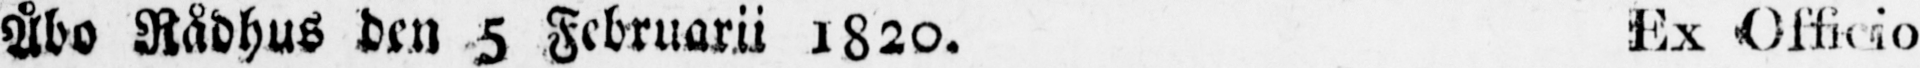Åbo Rådhus den 5 Februarii 1820. Ex Officio
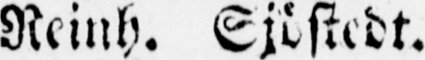Reinh. Sjöstedt.
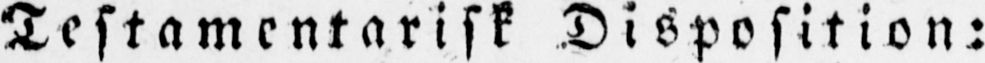Testamentarisk Disposition:
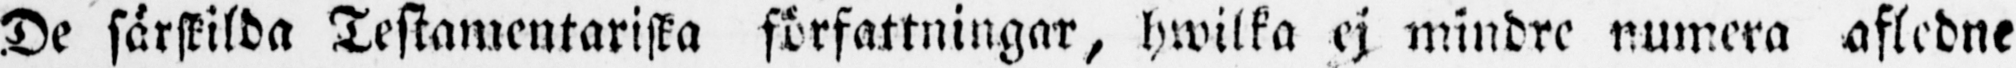De särskilda Testamentariska författningar, hwilka ej mindre numera afledne
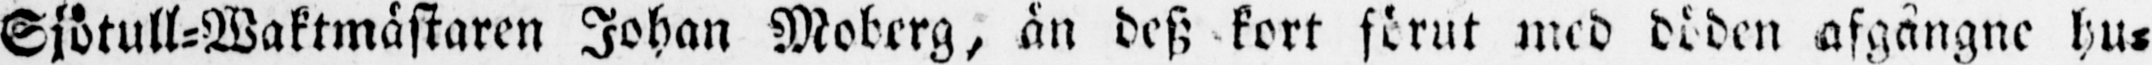Sjötull-Waktmästaren Johan Moberg, än desz kort förut med döden afgångne hu-
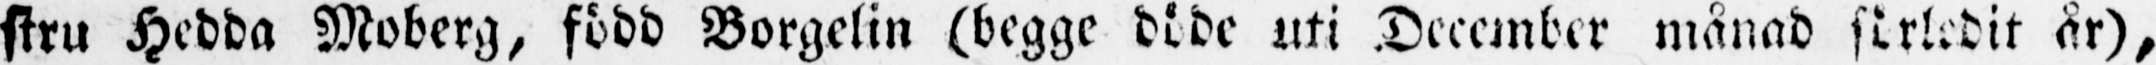stru Hedda Moberg, född Borgelin (begge döde uti December månad förledit år),
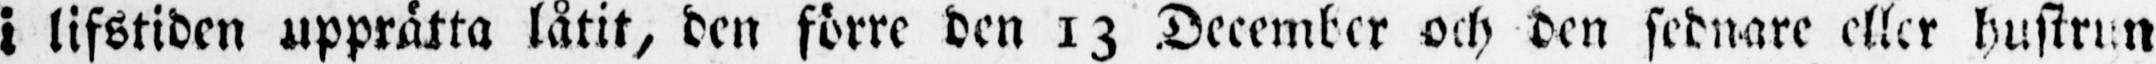i lifstiden upprätta låtit, den förre den 13 December och den sednare eller hustrun
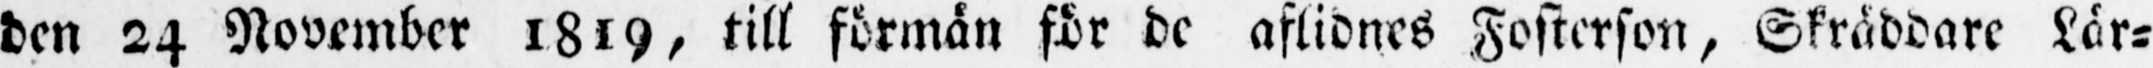den 24 November 1819, till förmån för de aflidnes Fosterson, Skräddare Lär-
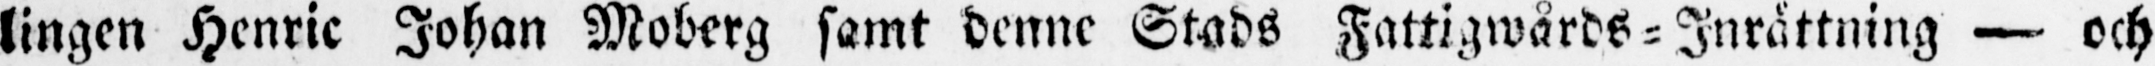lingen Henric Johan Moberg samt denne Stads Fattigwårds-Inrättning —- och
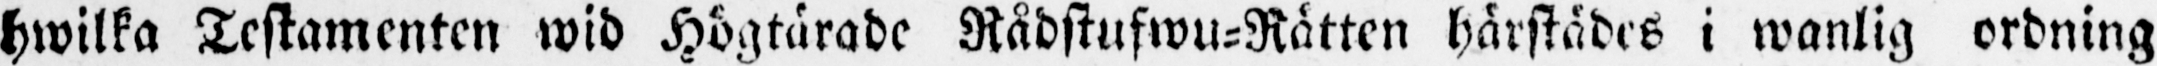hwilka Testamenten wid Högtärade Rådstufwu-Rätten härstädes i wanlig ordning
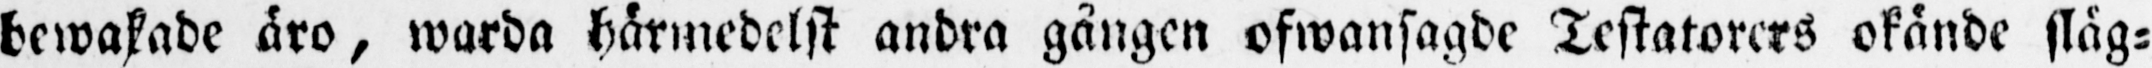bewakade äro, warda härmedelst andra gången ofwansagde Testatorers okände släg-
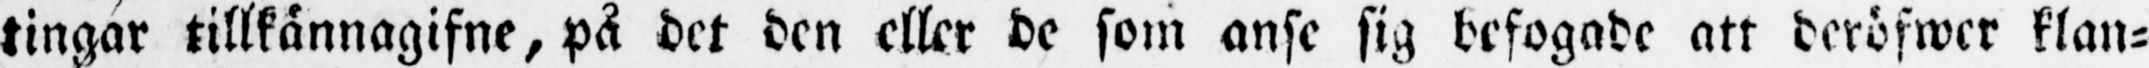tingar tillkännagifne, på det den eller de som anse sig befogade att deröfwer klan-
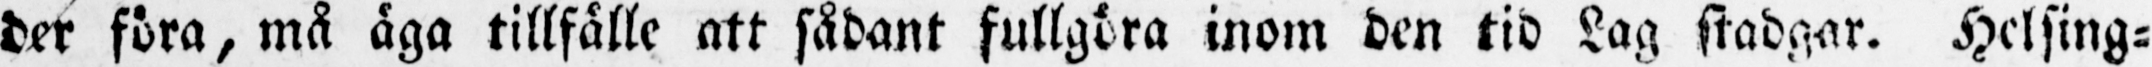der föra, må äga tillfälle att sådant fullgöra inom den tid Lag stadgar. Helsing-
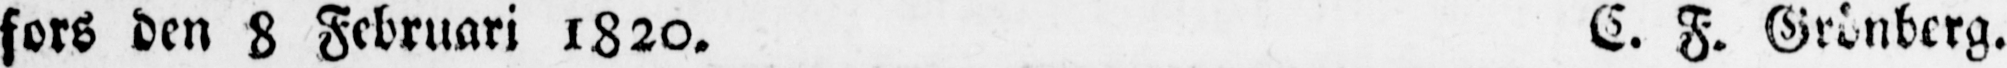fors den 8 Februari 1820. C. F. Grönberg.
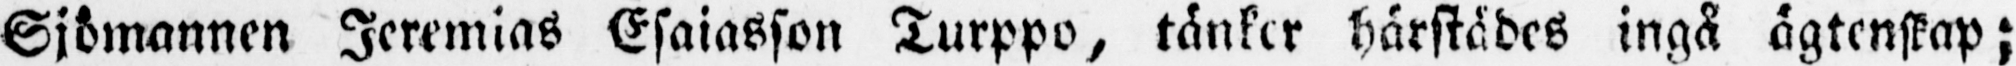Sjömannen Jeremias Esaiasson Turppo, tänker härstädes ingå ägtenskap;
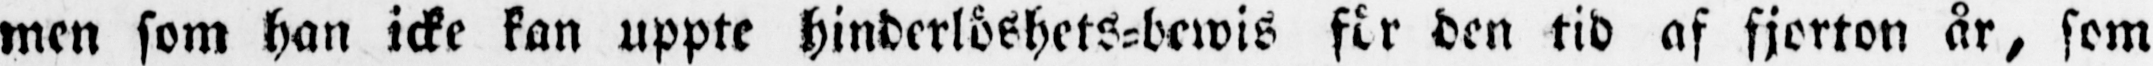men som han icke kan uppte hinderlöshets-bewis för den tid af fjorton år, som
